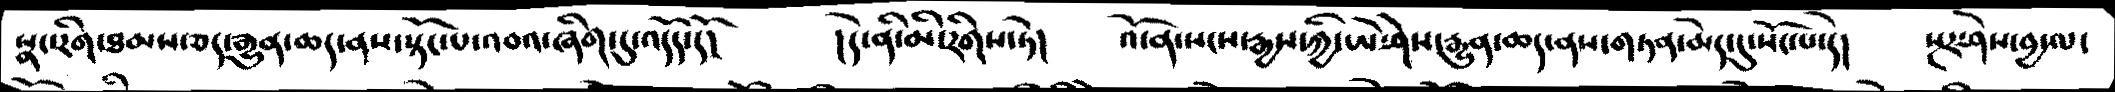སྣང་རིག་ཐམས་ཅད་རྒྱུན་ཆད་ནས་སྟོང་པ་འབའ་ཞིག་དུ་འདོད་དོ།     ། དེ་ནི་མི་རིགས་ཏེ།    འོ་ན་སངས་རྒྱས་ཀྱི་ཡེ་ཤེས་རྒྱུན་ཆད་ནས་གཏན་མེད་དུ་སོང་པ་དེ།  སྔར་ཤེས་བྱ་ལ་
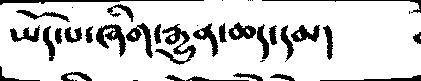ཡོད་པ་ཞིག་རྒྱུན་ཆད་དམ།
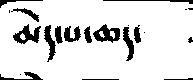མེད་པ་ཆད་
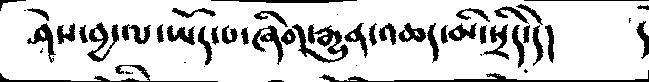ཤེས་བྱ་ལ་ཡོད་པ་ཞིག་རྒྱུན་འཆད་མི་སྲིད་དེ།    །
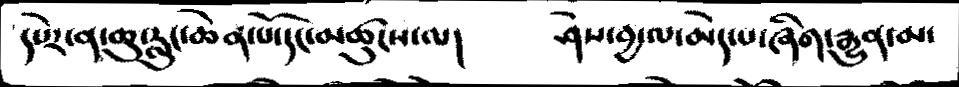དཔེར་ན་ཆུ་རླུང་ཆེན་པོ་དང་མཚུངས་ལ།    ཤེས་བྱ་ལ་མེད་པ་ཞིག་རྒྱུན་མ་
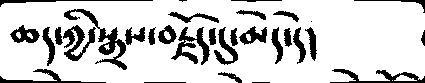ཆད་ཀྱི་སྒྲས་བརྗོད་དུ་མེད་དེ།
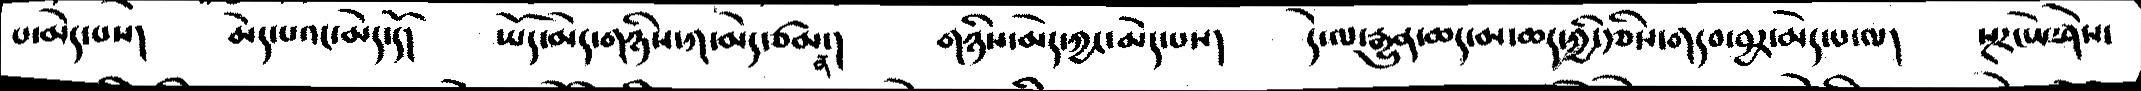པ་མེད་པས།  མེད་པའང་མེད་དོ།    ཡོད་མེད་གཉིས་ཀ་མེད་ཙམ་ན།   གཉིས་མེད་ཀྱང་མེད་པས།  དེ་ལ་རྒྱུན་ཆད་མ་ཆད་ཀྱི་རྩིས་གདབ་བྱར་མེད་པ་ལ།   སྔར་ཡེ་ཤེས་
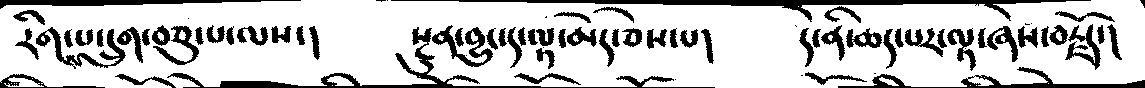རིགས་པ་དྲུག་བཅུ་པ་ལས་།     སྔུན་བྱུང་ད་ལྟ་མེད་ཅེས་པ།    དེ་ནི་ཆད་པར་ལྟ་ཞེས་བརྗོད་།
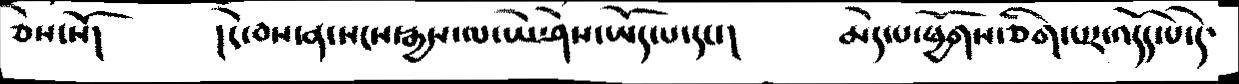ཅེས་སོ།      ། དེ་བས་ན་སངས་རྒྱས་ལ་ཡེ་ཤེས་ཡོད་པ་དང་།        མེད་པ་ཕྱོགས་ཅིག་པར་འདོད་པ་དེ་
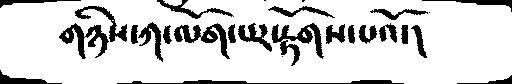གཉིས་ཀ་ལོག་པར་རྟོགས་པའོ་།
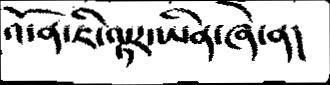འོ་ན་ཇི་ལྟར་ཡིན་ཞེ་ན།
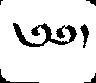༄༅།
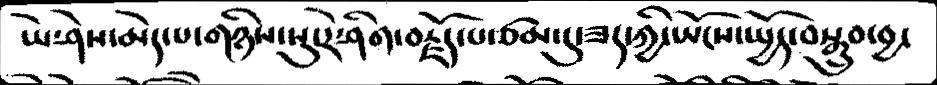ཡེ་ཤེས་མེད་པ་གཉིས་སུ་རེ་ཤིག་བརྗོད་པ་ཙམ་དུ་ཟད་ཀྱི་ཡོངས་སྤྱོད་བསྒྲུབ་བྱ་
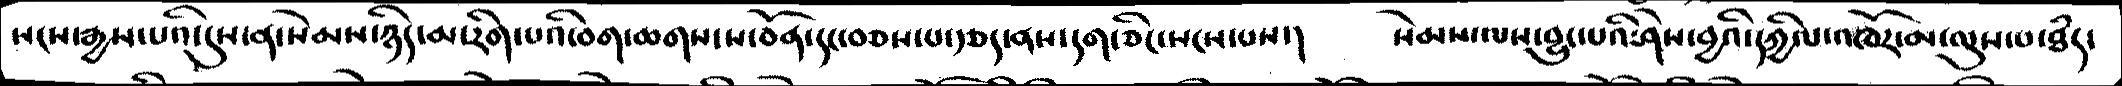སངས་རྒྱས་པའི་དུས་ན་སེམས་ཉིད་མ་རིག་པའི་བག་ཆགས་ས་བོན་དང་བཅས་པ་རྩད་ནས་དག་ཅིང་སངས་པས་།   སེམས་ལས་བྱུང་པའི་ཤེས་བྱའི་དཀྱིལ་འཁོར་མ་ལུས་པ་ཐཾད་
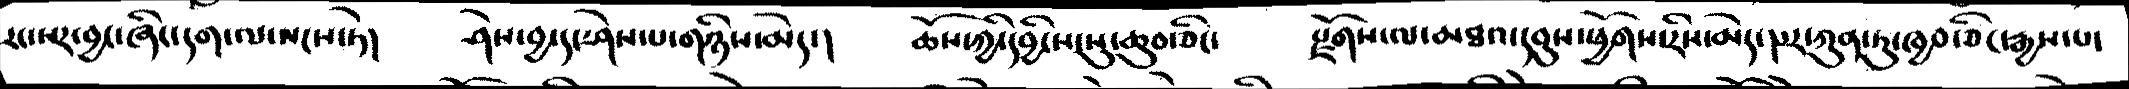རང་སར་བྱང་ཞིང་དག་པ་སངས་ཏེ།   ཤེས་བྱ་དང་ཤེས་པ་གཉིས་མེད་།   ཆོས་ཀྱི་དབྱིངས་སུ་ཆུབ་ཅིང་   རྫོགས་ལ་མཐའ་དབུས་ཕྱོགས་རིས་མེད་པར་ཀུན་ཏུ་ཁྱབ་ཅིང་རྒྱས་པ་
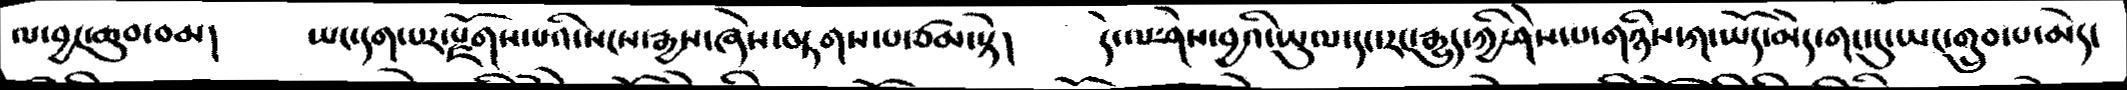ལ་བྱང་ཆུབ་བམ།    ཡང་དག་པར་རྗོགས་པའི་སངས་རྒྱས་ཞེས་བཏགས་པ་ཙམ་སྟེ།     དེ་ལ་ཤེས་བྱའི་ཡུལ་དང་རང་རྒྱུད་ཀྱི་ཤེས་པ་གཉིས་ཀ་ཡོད་མེད་གང་དུ་ཡང་གྲུབ་པ་མེད།
